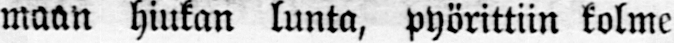maan hiukan lunta, pyörittiin kolme
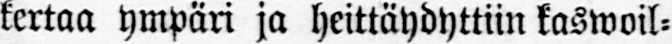kertaa ympäri ja heittäydyttiin kaswoil-
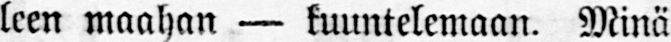leen maahan — kuuntelemaan. Minä
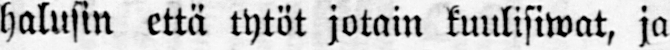halusin että tytöt jotain kuulisiwat, ja
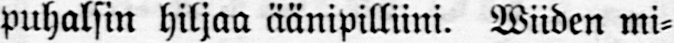puhalsin hiljaa äänipilliini. Wiiden mi-
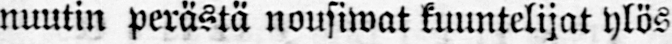nuutin perästä nousiwat kuuntelijat ylös
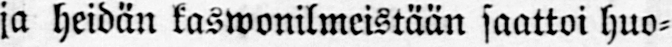ja heidän kaswonilmeistään saattoi huo-
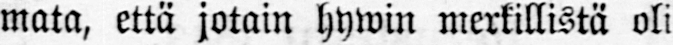mata, että jotain hywin merkillistä oli
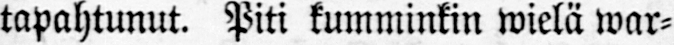tapahtunut. Piti kumminkin wielä war-
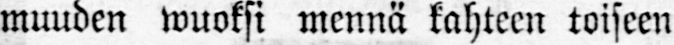muuden wuoksi mennä kahteen toiseen
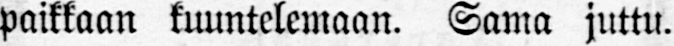paikkaan kuuntelemaan. Sama juttu.
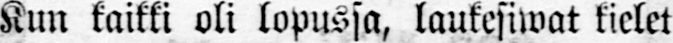Kun kaikki oli lopussa, laukesiwat kielet
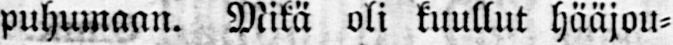puhumaan. Mikä oli kuullut hääjou-
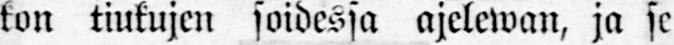kon tiukujen soidessa ajelewan, ja se
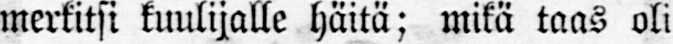merkitsi kuulijalle häitä; mikä taas oli
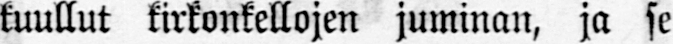kuullut kirkonkellojen juminan, ja se
